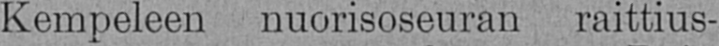Kempeleen nuorisoseuran raittius-
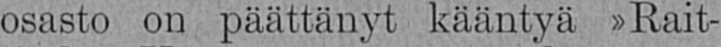osasto on päättänyt kääntyä »Rait-
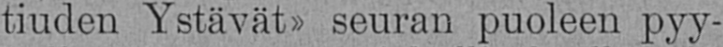tiuden Ystävät» seuran puoleen pyy-
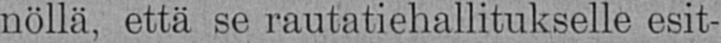nöllä, että se rautatiehallitukselle esit-
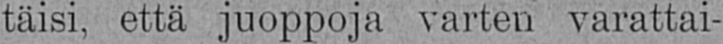täisi, että juoppoja varten varattai-
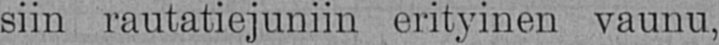siin rautatiejuniin erityinen vaunu,
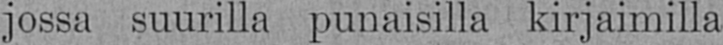jossa suurilla punaisilla kirjaimilla
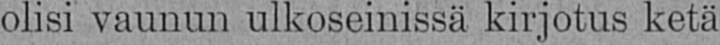olisi vaunun ulkoseinissä kirjotus ketä
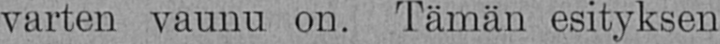varten vaunu on. Tämän esityksen
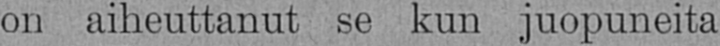on aiheuttanut se kun juopuneita
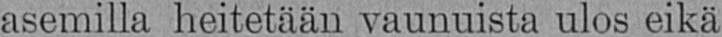asemilla keitetään vaunuista ulos eikä
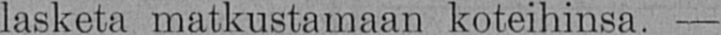lasketa matkustamaan koteihinsa. —
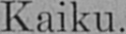Kaiku.
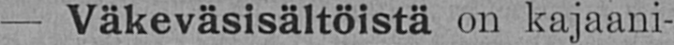— Väkeväsisältöistä on kajaani-
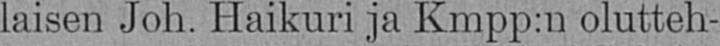laisen Joh. Haikuri ja Kmpp:n olutteh-
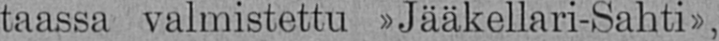taassa valmistettu »Jääkellari-Sahti»,
